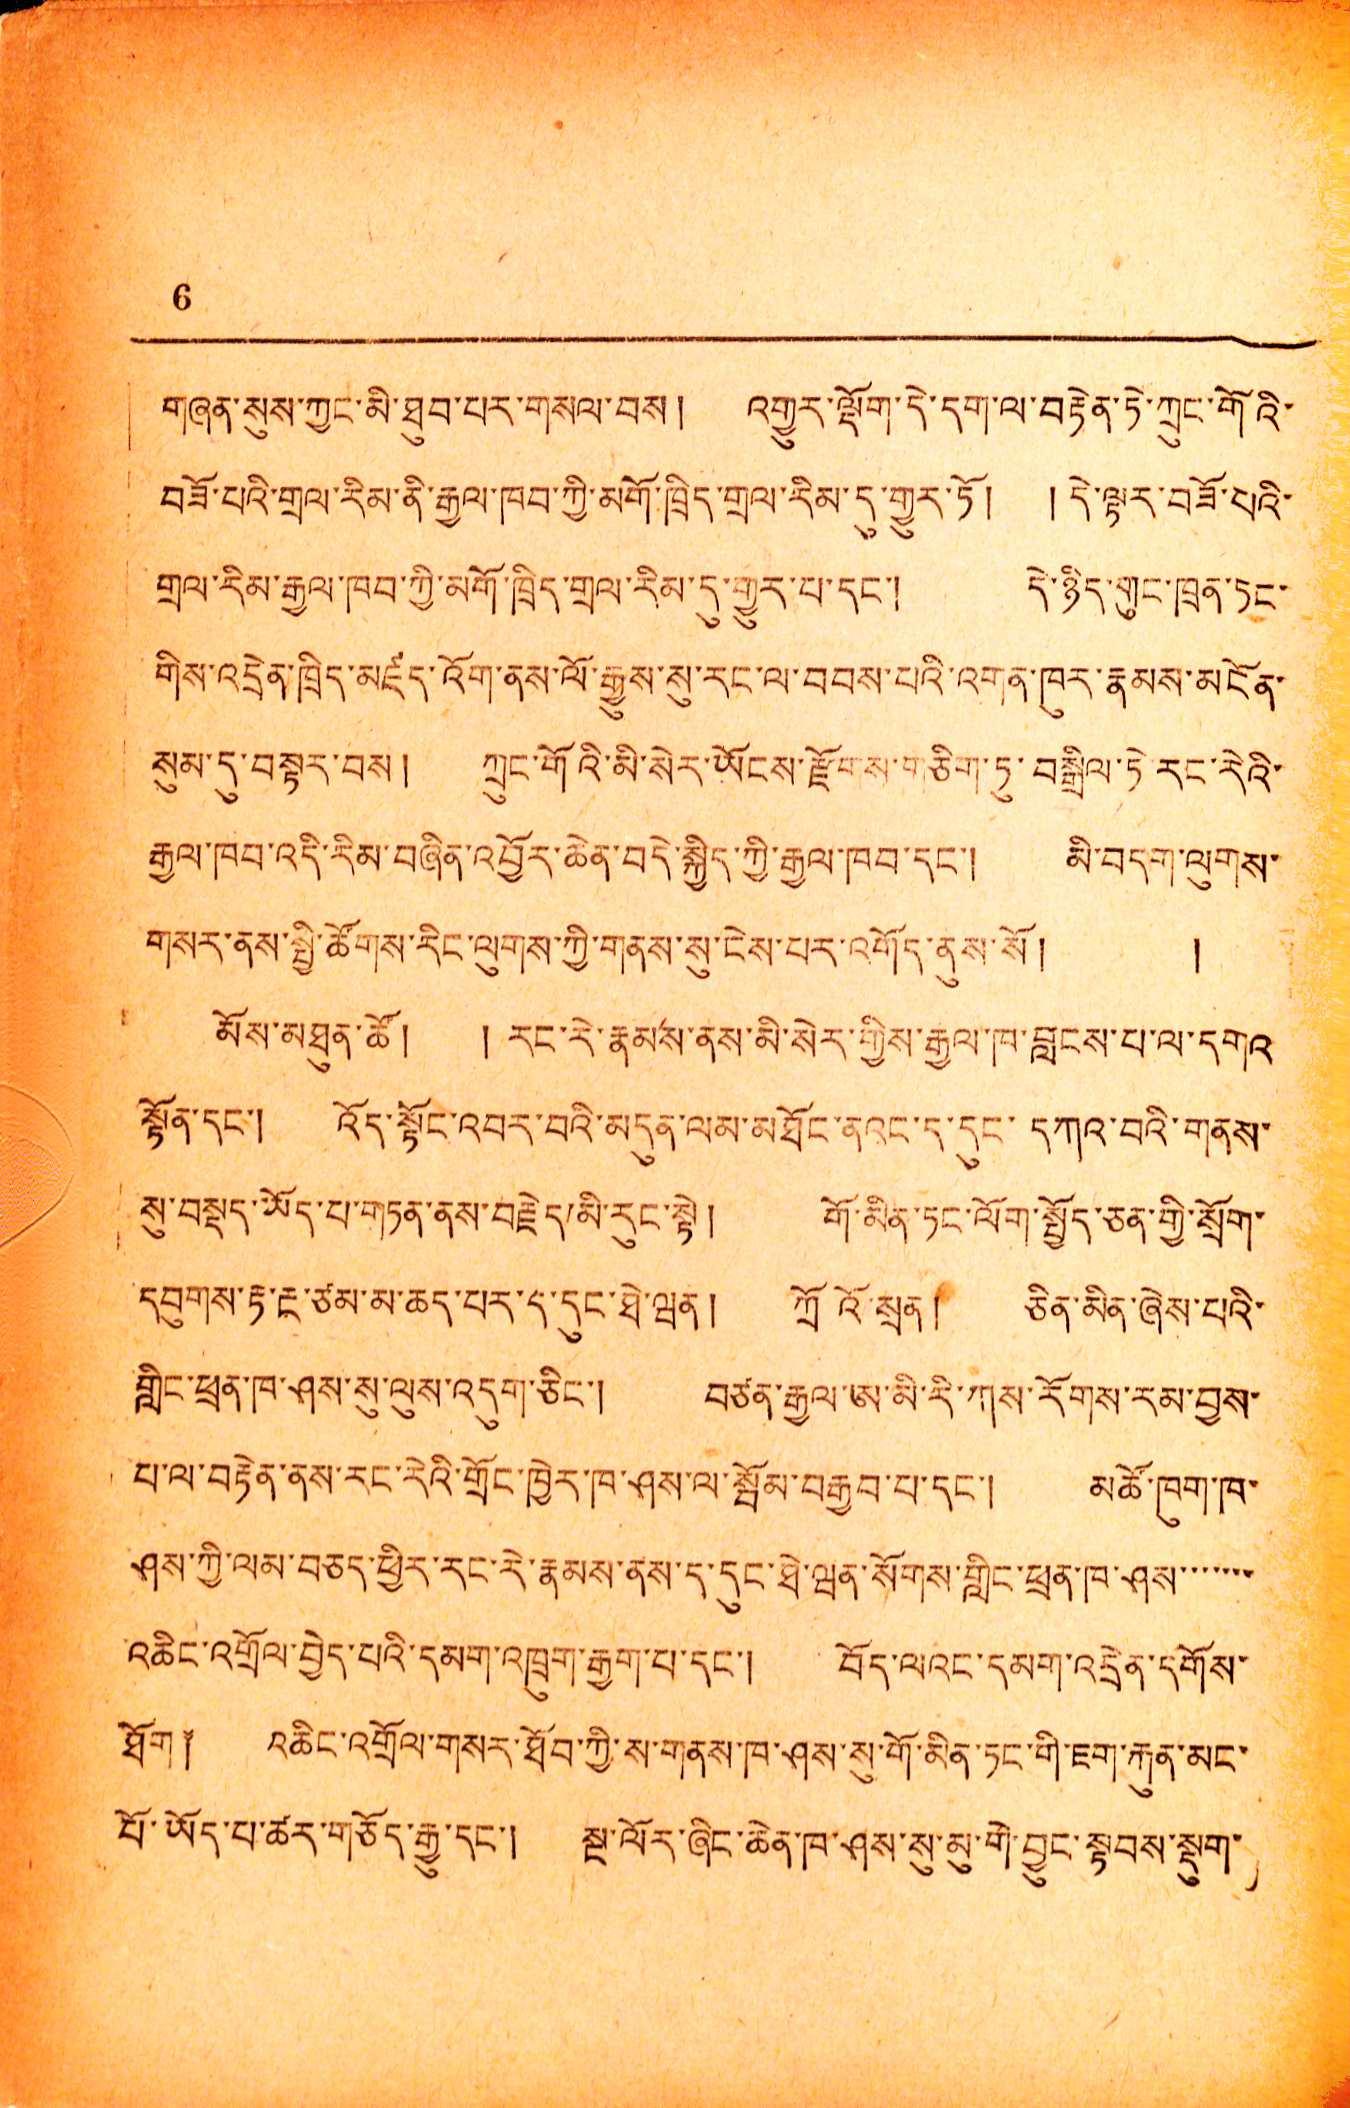6
བཞན་སུས་ཀྱང་མི་ཐུབ་པར་གསལ་བས། འགྱུད་ལྡོག་དེ་དག་ལ་བརྟེན་ཏེ་ཀྲུང་གོའི་
བཟོ་པའི་གྲལ་རིམ་ནི་རྒྱལ་ཁབ་ཀྱི་མགོ་ཁྲིད་གྲལ་རིམ་དུ་གྱུར་ཏོ། །དེ་ལྟར་བཟོ་པའི་
གྲལ་རིམ་རྒྱལ་ཁབ་གྱི་མགོ་ཁྲིད་གྲལ་རིམ་དུ་གྱུར་པ་དང་། དེ་ཉིད་གུང་ཁྲན་ཏང་
གིས་འདྲེན་ཁྲིད་མཛད་འོག་ནས་ལོ་རྒྱུས་སུ་རང་ལ་བབས་པའི་འགན་ཁུར་རྣམས་མངོན་
སུམ་དུ་བསྟར་བས། ཀྲུང་གོའི་མི་སེར་ཡོངས་རྫོགས་གཅིག་ཏུ་བསྒྲིལ་ཏེ་རང་རེའི་
རྒྱལ་ཁབ་འདི་རིམ་བཞིན་འབྱོར་ཆེན་བདེ་སྐྱིད་ཀྱི་རྒྱལ་ཁབ་དང་། མི་བདག་ལུགས་
གསར་ནས་སྤྱི་ཚོགས་རིང་ལུགས་ཀྱི་གནས་སུ་ངེས་པར་འགོད་ནུས་སོ། །
མོས་མཐུ་ཚོ། ། རང་རེ་རྣམས་ནས་མི་སེར་གྱིས་རྒྱལ་ཁ་བླངས་པ་ལ་དགའ
སྟོན་དང་། འོད་སྟོང་འབར་བའི་མདུན་ལམ་མཐོང་ནའང་ད་དུང་དཀའ་བའི་གནས་
སུ་བསྡད་ཡོད་པ་གཏན་ནས་བརྗེད་མི་རུང་སྷེ། གོ་མིན་ཏང་ལོག་སྤྱོད་ཅན་གྱི་སྲོག་
དབུགས་རྟ་རྔ་ཙམ་མ་ཆད་པར་ད་དུང་ཐེ་ཝན། ཀྲོའོ་སྲན། ཅིན་མིན་ཞེས་པའི་
གླིང་ཕྲན་ཁ་ཤས་སུ་ལུས་འདུག་ཅིང་། བཙན་རྒྱལ་ཨ་མི་རི་ཀས་རོགས་རམ་བྱས་
བ་ལ་བརྟེན་ནས་རང་རེའི་གྲོང་ཁྱེར་ཁ་ཤས་ལ་སྦོམ་བརྒྱབ་པ་དང་། མཚོ་ཁུག་ཁ་
ཤས་ཀྱི་ལམ་བཅད་ཕྱིར་རང་རེ་རྣམས་ནས་ད་དུང་ཐེ་ཝན་སོགས་གླིང་ཕྲན་ཁ་ཤས་་་་་་
འཆིང་འགྲོལ་བྱེད་པའི་དམག་འཁྲུག་རྒྱག་པ་དང་། བོད་ལའང་དམག་འདྲེན་དགོས་
ཐོག༈ འཆིང་འགྲོལ་གསར་ཐོབ་ཀྱི་ས་གནས་ཁ་ཤས་སུ་གོ་མིན་ཏང་གི་ཇག་རྐུན་མང་
པོ་ཡོད་པ་ཚར་གཙོད་རྒྱུ་དང་། ལྔ་ལོར་ཞིང་ཆེན་ཁ་ཤས་སུ་མུ་གེ་བྱུང་སྟབས་སྡུག་
